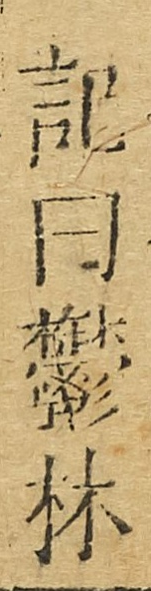記曰鬱林
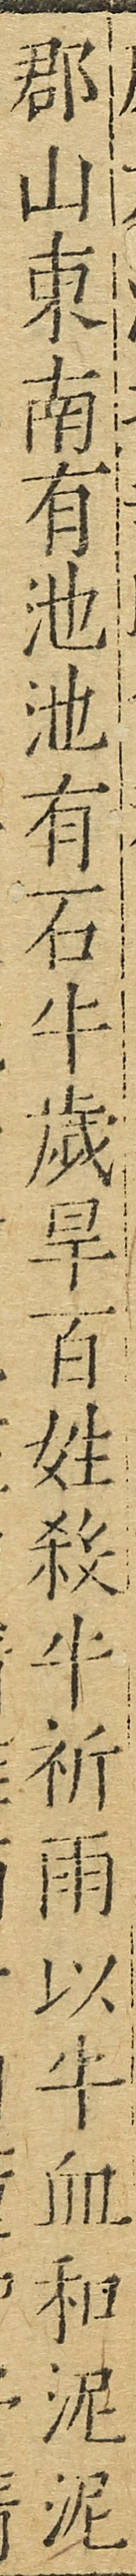郡山東南有池池有石牛歲旱百姓殺牛祈雨以牛血和泥泥
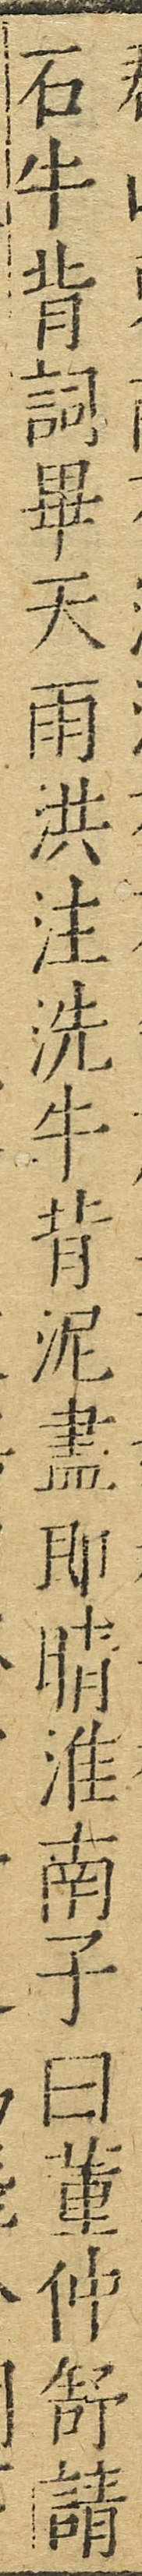石牛背祠畢天雨洪注洗牛背泥盡卽晴淮南子曰董仲舒請
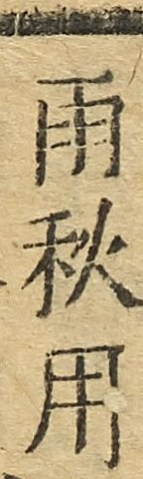雨秋用
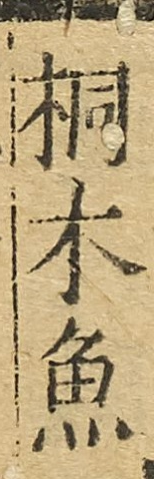桐木魚
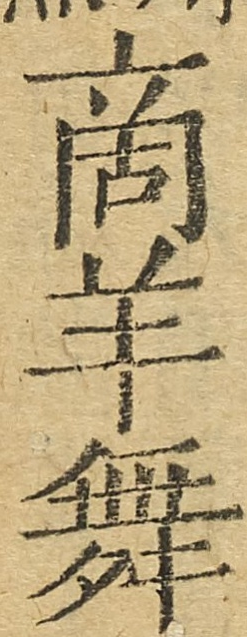商羊舞
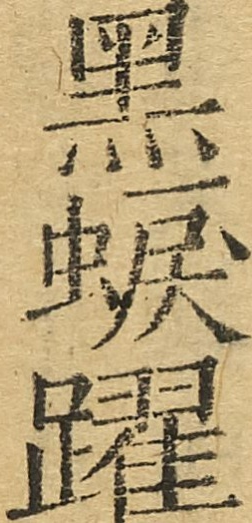黑蜧躍
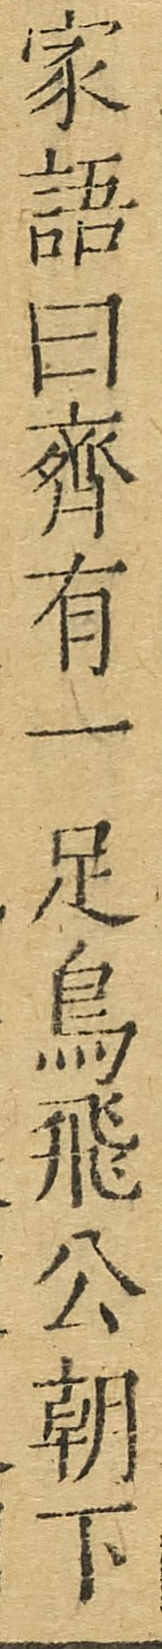家語曰齊有一足鳥飛公朝下
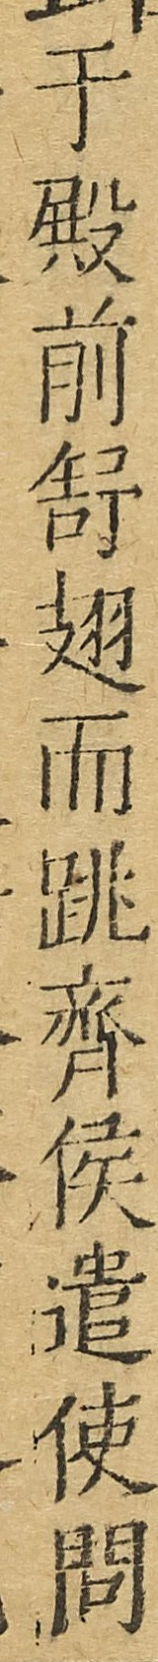於殿前舒翅而跳齊侯遣使問
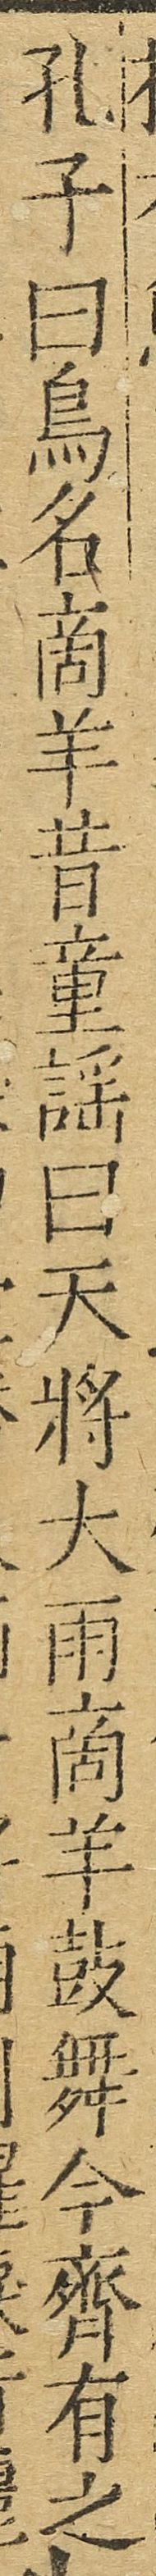孔子曰鳥名商羊昔童謠曰天將大雨商羊鼓舞今齊有之
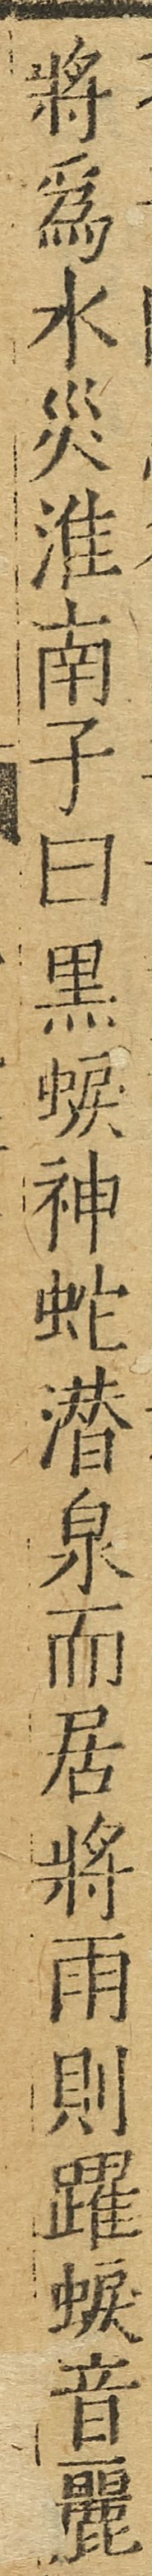將爲水災淮南子曰黑蜧神蛇潛泉而居將雨則躍蜧音麗
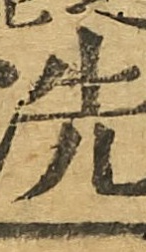洗
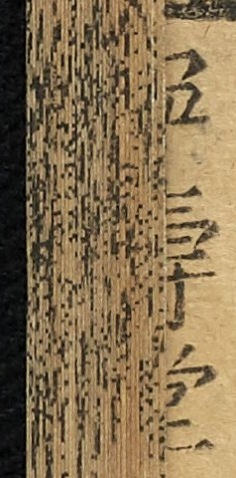寧壽堂
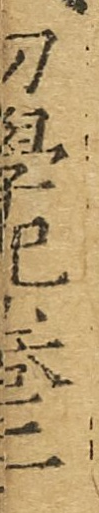初學記卷二
